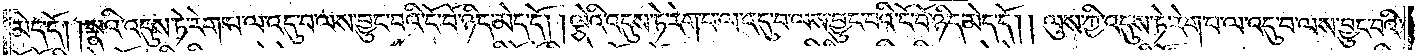མེད་དོ། །སྣའི་འདུས་ཏེ་རེག་པ་ལ་འདུ་བ་ལས་བྱུང་བའི་ངོ་བོ་ཉིད་མེད་དོ། །ལྕེའི་འདུས་ཏེ་རེག་པ་ལ་འདུ་བ་ལས་བྱུང་བའི་ངོ་བོ་ཉིད་མེད་དོ། །ལུས་ཀྱི་འདུས་ཏེ་རེག་པ་ལ་འདུ་བ་ལས་བྱུང་བའི་
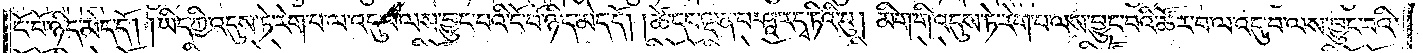ངོ་བོ་ཉིད་མེད་དོ། །ཡིད་ཀྱི་འདུས་ཏེ་རེག་པ་ལ་འདུ་བ་ལས་བྱུང་བའི་ངོ་བོ་ཉིད་མེད་དོ། །ཚེ་དང་ལྡན་པ་ཤཱ་ར་དྭ་ཏིའི་བུ། མིག་གི་འདུས་ཏེ་རེག་པ་ལས་བྱུང་བའི་ཚོར་བ་ལ་འདུ་བ་ལས་བྱུང་བའི་
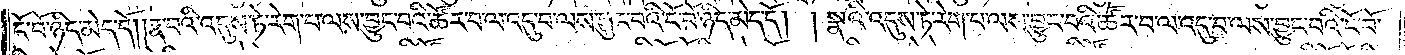ངོ་བོ་ཉིད་མེད་དོ། །རྣ་བའི་འདུས་ཏེ་རེག་པ་ལས་བྱུང་བའི་ཚོར་བ་ལ་འདུ་བ་ལས་བྱུང་བའི་ངོ་བོ་ཉིད་མེད་དོ། །སྣའི་འདུས་ཏེ་རེག་པ་ལས་བྱུང་བའི་ཚོར་བ་ལ་འདུ་བ་ལས་བྱུང་བའི་ངོ་བོ་
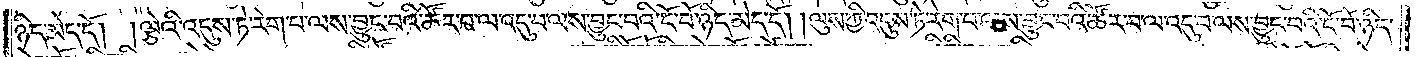ཉིད་མེད་དོ། །ལྕེའི་འདུས་ཏེ་རེག་པ་ལས་བྱུང་བའི་ཚོར་བ་ལ་འདུ་བ་ལས་བྱུང་བའི་ངོ་བོ་ཉིད་མེད་དོ། །ལུས་ཀྱི་འདུས་ཏེ་རེག་པ་ལས་བྱུང་བའི་ཚོར་བ་ལ་འདུ་བ་ལས་བྱུང་བའི་ངོ་བོ་ཉིད་
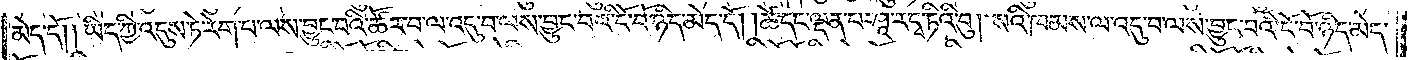མེད་དོ། །ཡིད་ཀྱི་འདུས་ཏེ་རེག་པ་ལས་བྱུང་བའི་ཚོར་བ་ལ་འདུ་བ་ལས་བྱུང་བའི་ངོ་བོ་ཉིད་མེད་དོ། །ཚེ་དང་ལྡན་པ་ཤཱ་ར་དྭ་ཏིའི་བུ། སའི་ཁམས་ལ་འདུ་བ་ལས་བྱུང་བའི་ངོ་བོ་ཉིད་མེད་
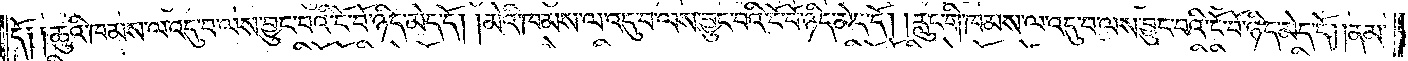དོ། །ཆུའི་ཁམས་ལ་འདུ་བ་ལས་བྱུང་བའི་ངོ་བོ་ཉིད་མེད་དོ། །མེའི་ཁམས་ལ་འདུ་བ་ལས་བྱུང་བའི་ངོ་བོ་ཉིད་མེད་དོ། །རླུང་གི་ཁམས་ལ་འདུ་བ་ལས་བྱུང་བའི་ངོ་བོ་ཉིད་མེད་དོ། །ནམ་
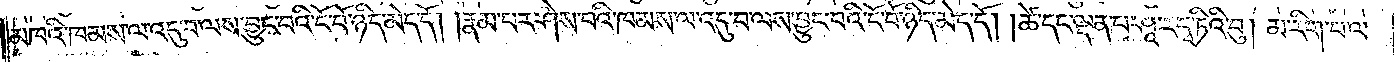མཁའི་ཁམས་ལ་འདུ་བ་ལས་བྱུང་བའི་ངོ་བོ་ཉིད་མེད་དོ། །རྣམ་པར་ཤེས་པའི་ཁམས་ལ་འདུ་བ་ལས་བྱུང་བའི་ངོ་བོ་ཉིད་མེད་དོ། །ཚེ་དང་ལྡན་པ་ཤཱ་ར་དྭ་ཏིའི་བུ། མ་རིག་པ་ལ་
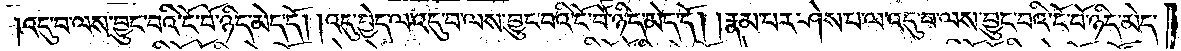འདུ་བ་ལས་བྱུང་བའི་ངོ་བོ་ཉིད་མེད་དོ། །འདུ་བྱེད་ལ་འདུ་བ་ལས་བྱུང་བའི་ངོ་བོ་ཉིད་མེད་དོ། །རྣམ་པར་ཤེས་པ་ལ་འདུ་བ་ལས་བྱུང་བའི་ངོ་བོ་ཉིད་མེད་
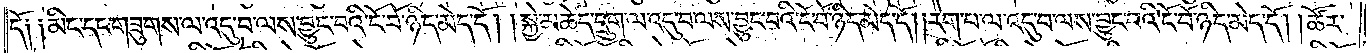དོ༑ ༑མིང་དང་གཟུགས་ལ་འདུ་བ་ལས་བྱུང་བའི་ངོ་བོ་ཉིད་མེད་དོ། །སྐྱེ་མཆེད་དྲུག་ལ་འདུ་བ་ལས་བྱུང་བའི་ངོ་བོ་ཉིད་མེད་དོ། །རེག་པ་ལ་འདུ་བ་ལས་བྱུང་བའི་ངོ་བོ་ཉིད་མེད་དོ། །ཚོར་
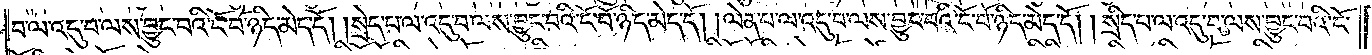བ་ལ་འདུ་བ་ལས་བྱུང་བའི་ངོ་བོ་ཉིད་མེད་དོ། །སྲེད་པ་ལ་འདུ་བ་ལས་བྱུང་བའི་ངོ་བོ་ཉིད་མེད་དོ། །ལེན་པ་ལ་འདུ་བ་ལས་བྱུང་བའི་ངོ་བོ་ཉིད་མེད་དོ། །སྲིད་པ་ལ་འདུ་བ་ལས་བྱུང་བའི་ངོ་
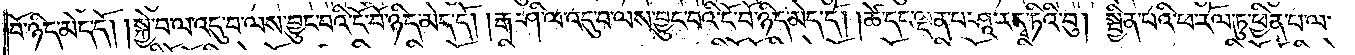བོ་ཉིད་མེད་དོ། །སྐྱེ་བ་ལ་འདུ་བ་ལས་བྱུང་བའི་ངོ་བོ་ཉིད་མེད་དོ། །རྒ་ཤི་ལ་འདུ་བ་ལས་བྱུང་བའི་ངོ་བོ་ཉིད་མེད་དོ། །ཚེ་དང་ལྡན་པ་ཤཱ་ར་དྭ་ཏིའི་བུ། སྦྱིན་པའི་ཕ་རོལ་ཏུ་ཕྱིན་པ་ལ་
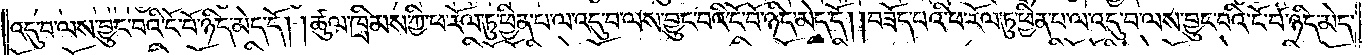འདུ་བ་ལས་བྱུང་བའི་ངོ་བོ་ཉིད་མེད་དོ། །ཚུལ་ཁྲིམས་ཀྱི་ཕ་རོལ་ཏུ་ཕྱིན་པ་ལ་འདུ་བ་ལས་བྱུང་བའི་ངོ་བོ་ཉིད་མེད་དོ། །བཟོད་པའི་ཕ་རོལ་ཏུ་ཕྱིན་པ་ལ་འདུ་བ་ལས་བྱུང་བའི་ངོ་བོ་ཉིད་མེད་
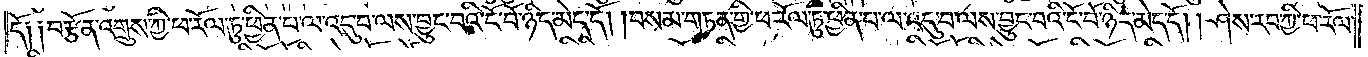དོ། །བརྩོན་འགྲུས་ཀྱི་ཕ་རོལ་ཏུ་ཕྱིན་པ་ལ་འདུ་བ་ལས་བྱུང་བའི་ངོ་བོ་ཉིད་མེད་དོ། །བསམ་གཏན་གྱི་ཕ་རོལ་ཏུ་ཕྱིན་པ་ལ་འདུ་བ་ལས་བྱུང་བའི་ངོ་བོ་ཉིད་མེད་དོ། །ཤེས་རབ་ཀྱི་ཕ་རོལ་
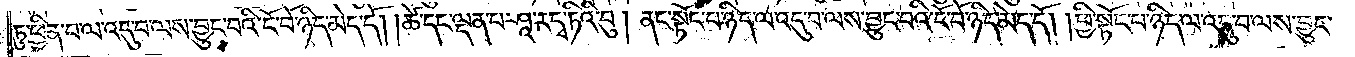ཏུ་ཕྱིན་པ་ལ་འདུ་བ་ལས་བྱུང་བའི་ངོ་བོ་ཉིད་མེད་དོ། །ཚེ་དང་ལྡན་པ་ཤཱ་ར་དྭ་ཏིའི་བུ། ནང་སྟོང་པ་ཉིད་ལ་འདུ་བ་ལས་བྱུང་བའི་ངོ་བོ་ཉིད་མེད་དོ། །ཕྱི་སྟོང་པ་ཉིད་ལ་འདུ་བ་ལས་བྱུང་
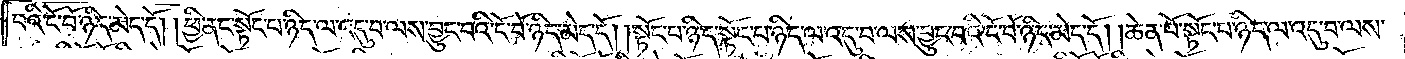བའི་ངོ་བོ་ཉིད་མེད་དོ། །ཕྱི་ནང་སྟོང་པ་ཉིད་ལ་འདུ་བ་ལས་བྱུང་བའི་ངོ་བོ་ཉིད་མེད་དོ། །སྟོང་པ་ཉིད་སྟོང་པ་ཉིད་ལ་འདུ་བ་ལས་བྱུང་བའི་ངོ་བོ་ཉིད་མེད་དོ། །ཆེན་པོ་སྟོང་པ་ཉིད་ལ་འདུ་བ་ལས་
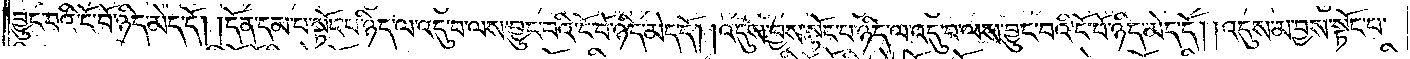བྱུང་བའི་ངོ་བོ་ཉིད་མེད་དོ། །དོན་དམ་པ་སྟོང་པ་ཉིད་ལ་འདུ་བ་ལས་བྱུང་བའི་ངོ་བོ་ཉིད་མེད་དོ། །འདུས་བྱས་སྟོང་པ་ཉིད་ལ་འདུ་བ་ལས་བྱུང་བའི་ངོ་བོ་ཉིད་མེད་དོ། །འདུས་མ་བྱས་སྟོང་པ་
